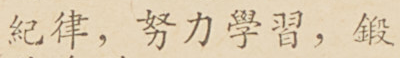紀律，努力學習，鍛
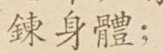鍊身體；
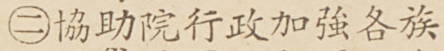㊁協助院行政加強各族
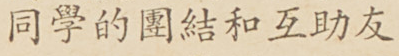同學的團結和互助友
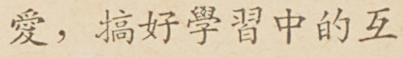愛，搞好學習中的互
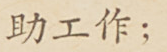助工作；
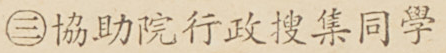㊂協助院行政搜集同學
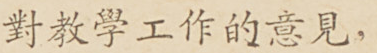對教學工作的意見，
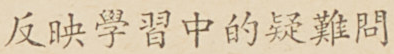反映學習中的疑難問
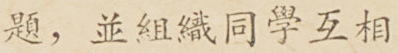題，並組織同學互相
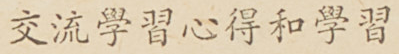交流學習心得和學習
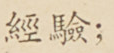經驗；
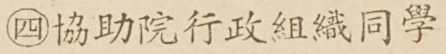㊃協助院行政組織同學
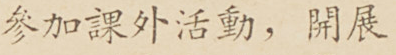參加課外活動，開展
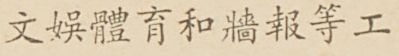文娛體育和牆報等工
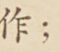作；
